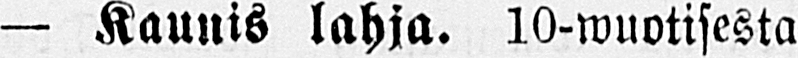— Kaunis lahja. 10-wuotisesta
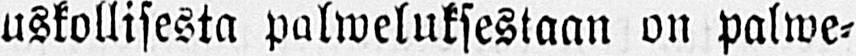uskollisesta palweluksestaan on palwe-
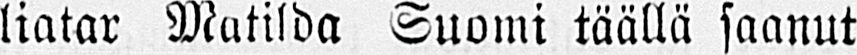liatar Matilda Suomi täällä saanut
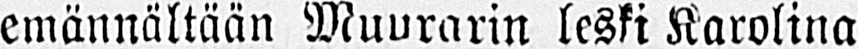emännältään Muurarin leski Karolina
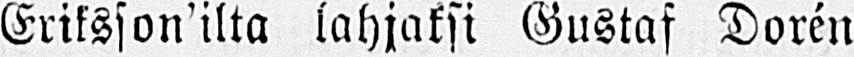Eriksson'ilta lahjaksi Gustaf Dorén
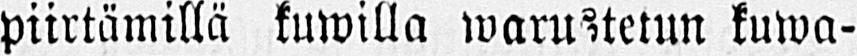piirtämillä kuwilla kuwa-
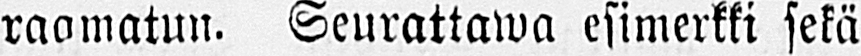raamatun. Seurattawa esimerkki sekä
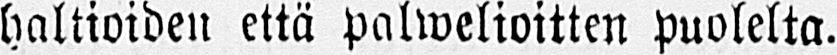haltioiden että palwelioitten puolelta.
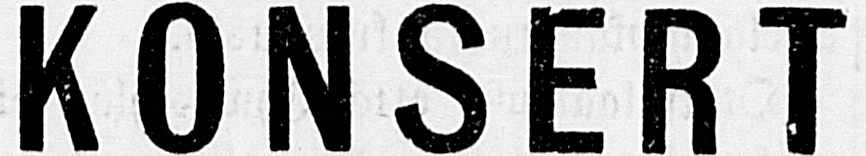KONSERT
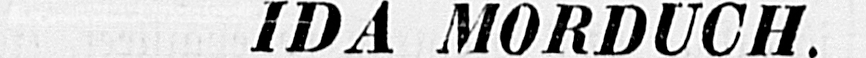IDA MORDUCH.
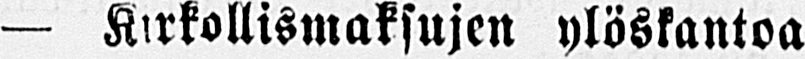— Kirkollismaksujen ylöskantoa
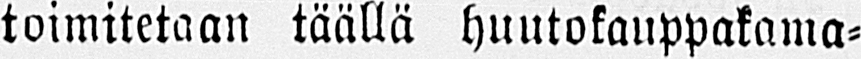toimitetaan täällä huutokauppakama-
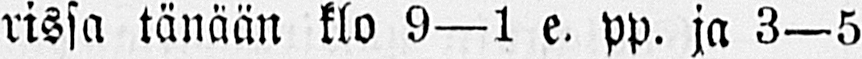rissa tänään klo 9 —1 e. pp. ja 3—5
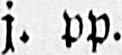j. PP-
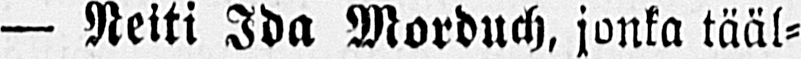— Neiti Ida Morduch, jonka tääl-
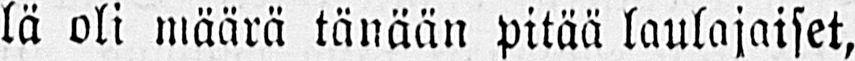lä oli määrä tänään pitää laulajaiset,
